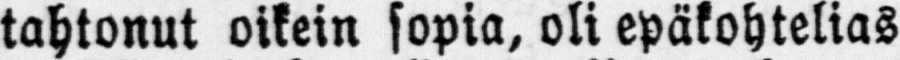tahtonut oikein sopia, oli epäkohtelias
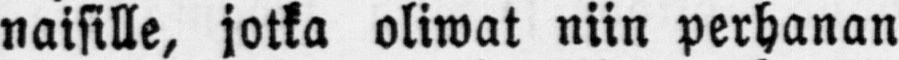naisille, jotka oliwat niin perhanan
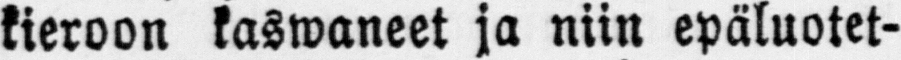kieroon kaswaneet ja niin epäluotet-
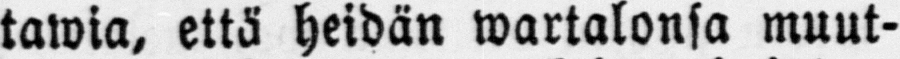tawia, että heidän wartalonsa muut-
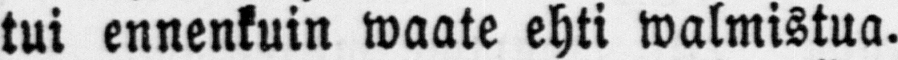tui ennenkuin waate ehti walmistua.
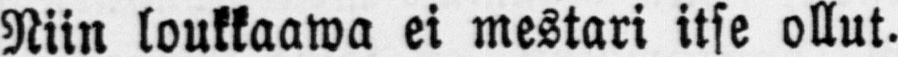Niin loukkaawa ei mestari itse ollut.
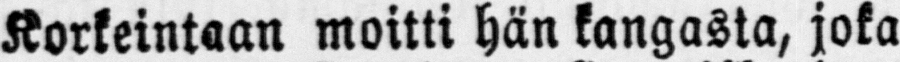Korkeintaan moitti hän kangasta, joka
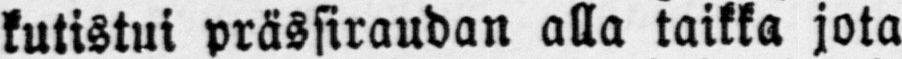kutistui prässiraudan alla taikka jota
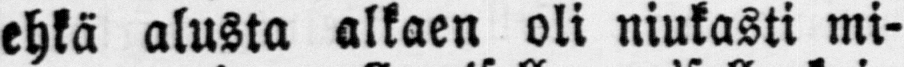ehkä alusta alkaen oli niukasti mi-
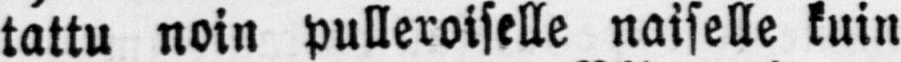tattu noin pulleroiselle naiselle kuin
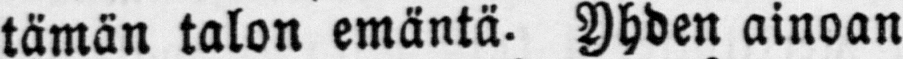tämän talon emäntä. Yhden ainoan
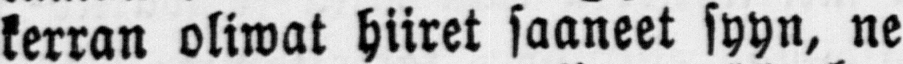kerran oliwat hiiret saaneet syyn, ne
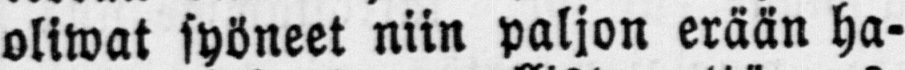oliwat syöneet niin paljon erään ha-
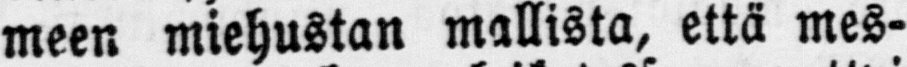meen miehustan mallista, että mes-
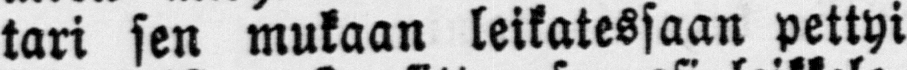tari sen mukaan leikatessaan pettyi
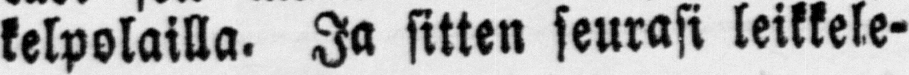kelpolailla. Ja sitten seurasi leikkele-
